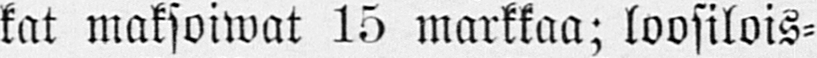kat maksoiwat 15 markkaa; loosilois-
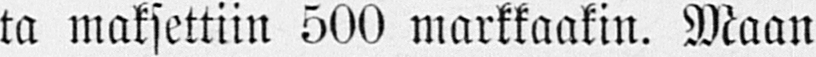ta maksettiin 500 markkaakin. Maan
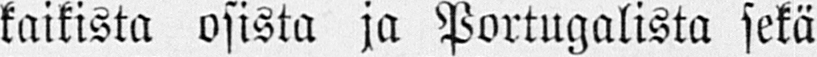kaikista osista ja Portugalista sekä
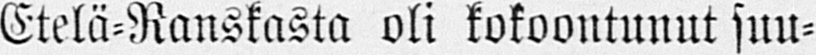Etelä-Ranskasta oli kokoontunut suu-
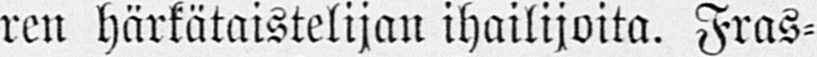ren härkätaistelijan ihailijoita. Fras-
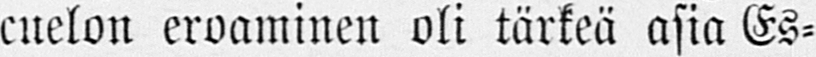cuelon eroaminen oli tärkeä asia Es-
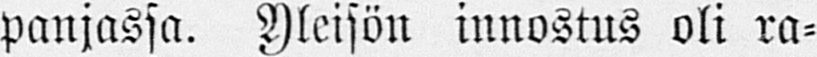panjassa. Yleisön innostus oli ra-
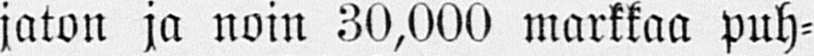jaton ja noin 30,000 markkaa puh-
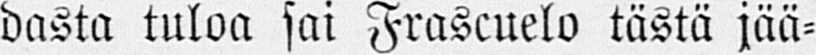dasta tuloa sai Frascuelo tästä jää-
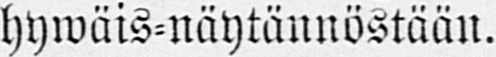hywäis-näytännöstään.
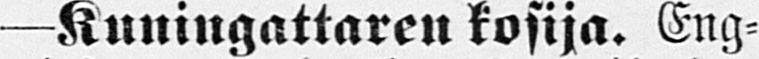—Kuningattaren kosija. Eng-
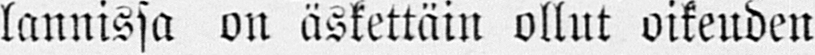lannissa on äskettäin ollut oikeuden
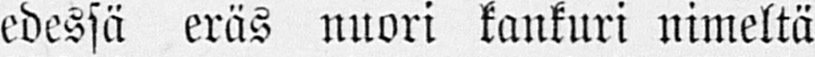edessä eräs nuori kankuri nimeltä
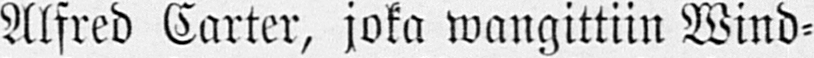Alfred Carter, joka wangittiin Wind-
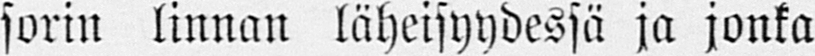sorin linnan läheisyydessä ja jonka
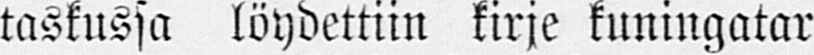taskussa löydettiin kirje kuningatar
